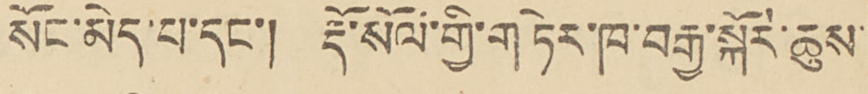སོང་མེད་པ་དང་། རྡོ་སོལ་གྱི་གཏེར་ཁ་བརྒྱ་སྐོར་ཆུས་
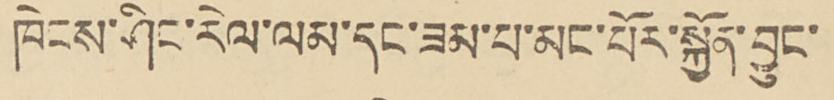ཁེངས་ཤིང་རེལ་ལམ་དང་ཟམ་པ་མང་པོར་སྐྱོན་བྱུང་
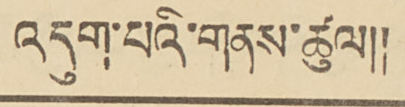འདུག་པའི་གནས་ཚུལ།།
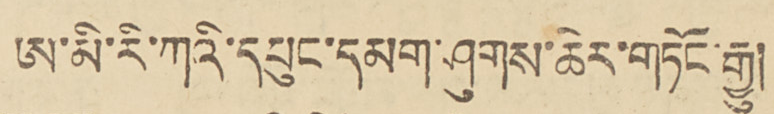ཨ་མི་རི་ཀའི་དཔུང་དམག་ཤུགས་ཆེར་གཏོང་རྒྱུ།
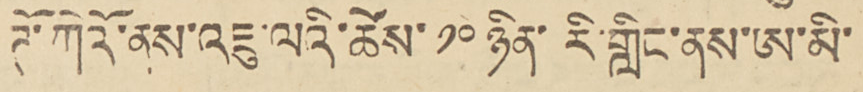ཊོ་ཀེའོ་ནས་འཇུ་ལའི་ཚེས་ ༡༠ ཉིན་རི་གླིང་ནས་ཨ་མི་
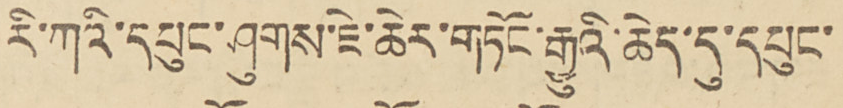རི་ཀའི་དཔུང་ཤུགས་ཇེ་ཆེར་གཏོང་རྒྱུའི་ཆེད་དུ་དཔུང་
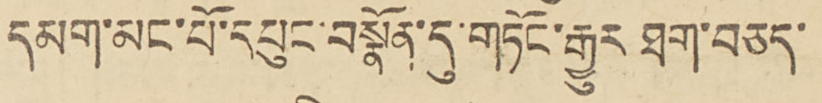དམག་མང་པོ་དཔུང་བསྣོན་དུ་གཏོང་རྒྱུར ཐག་བཅད་
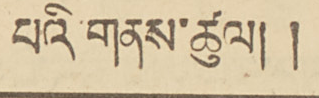པའི གནས་ཚུལ།།
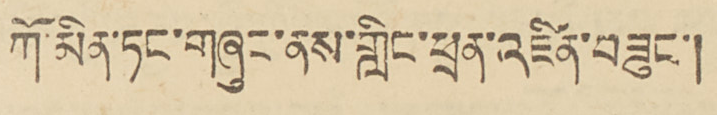ཀོ་མིན་ཏང་གཞུང་ནས་གླིང་ཕྲན་འཛིན་བཟུང་།
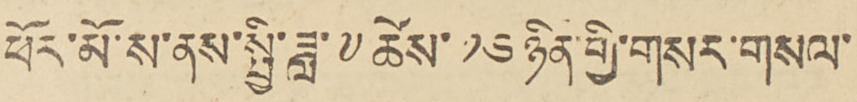ཕོར་མོ་ས་ནས་སྤྱི་ཟླ་༧ཚེས་ ༡༦ ཉིན་གྱི་གསར་གསལ་
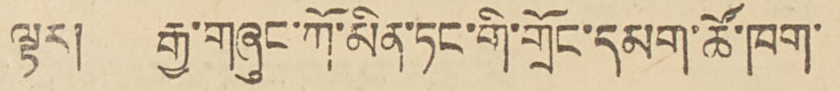ལྟར། རྒྱ་གཞུང་ཀོ་མིན་ཏང་གི་གྲོང་དམག་ཚོ་ཁག་
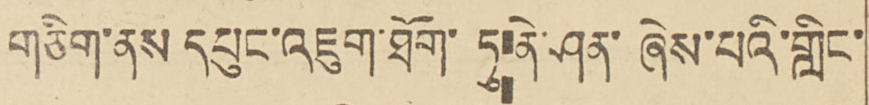གཅིག་ནས་དཔུང་འཇུག་ཐོག ཏུ ནེ་ཤན་ཞེས་པའི་གླིང་
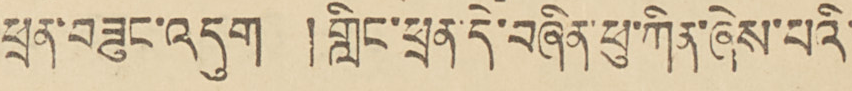ཕྲན་བཟུང་འདུག །གླིང་ཕྲན་དེ་བཞིན་ཕུ་ཀིན་ཞེས་པའི་
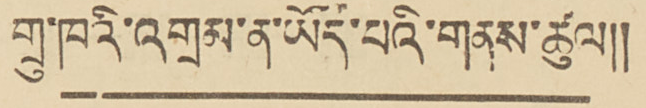གྲུ་ཁའི་འགྲམ་ན་ཡོད་པའི་གནས་ཚུལ།།
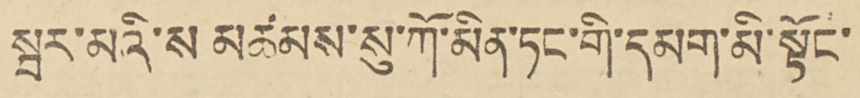སྦར་མའི་ས་མཚམས་སུ་ཀོ་མིན་ཏང་གི་དམག་མི་སྟོང་
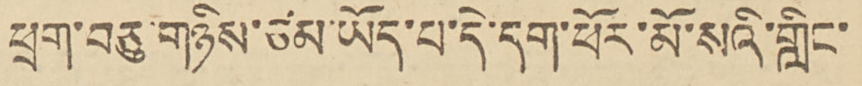ཕྲག་བཅུ་གཉིས་ཙམ་ཡོད་པ་དེ་དག་ཕོར་མོ་སའི་གླིང་
